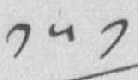༡༥༡
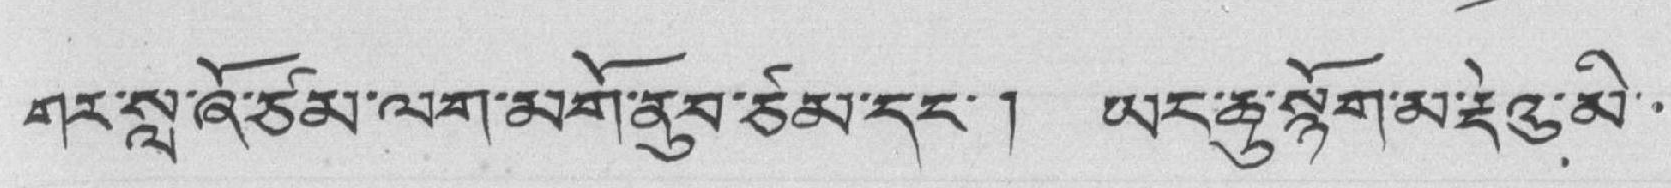གར་སླ་ཞོ་ཙམ་ལག་མགོ་ནུབ་ཙམ་དང་། ཡང་ཆུ་སྙོག་མ་རྡེའུ་མི་་
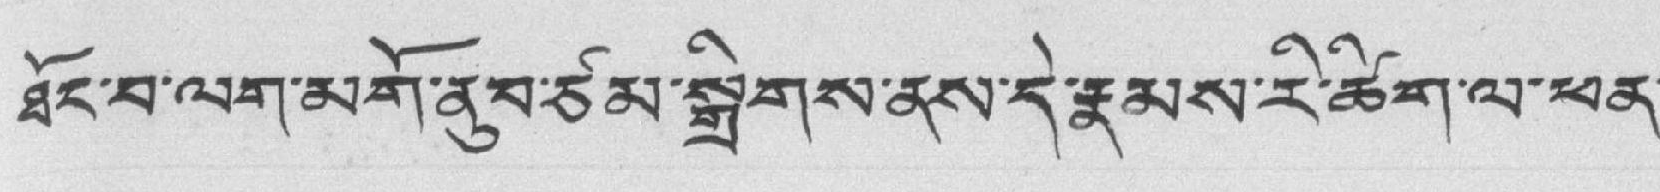ཐོང་བ་ལག་མགོ་ནུབ་ཙམ་སྒྲིགས་ནས་དེ་རྣམས་རི་ཚིག་ལ་ཕན་
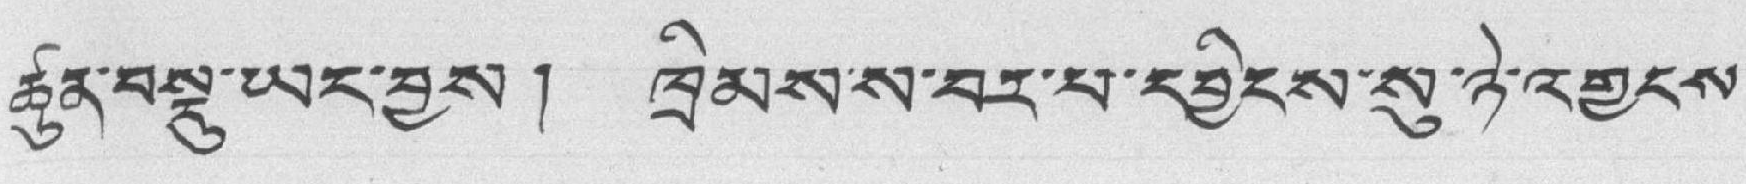ཚུན་བསྡུ་ཡང་བྱས། ཁྲིམས་ས་བར་པ་དབྱིངས་སུ་ཉེ་འགྱངས་
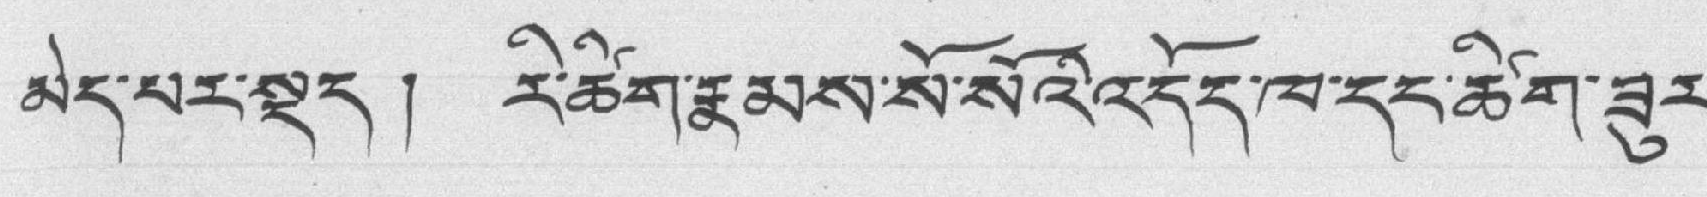མེད་པར་སྡུད། རི་ཚིག་རྣམས་སོ་སོའི་འདོད་ཁ་དང་ཚིག་ཟུར་
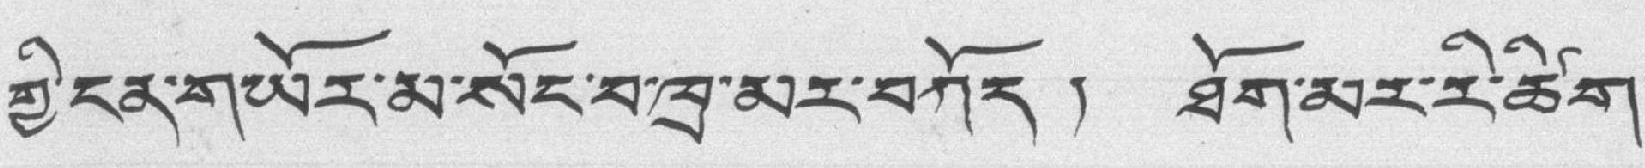གྱི་ངན་གཡོར་མ་སོང་བ་ཁྲ་མར་བཀོད ། ཐོག་མར་རི་ཚིག་
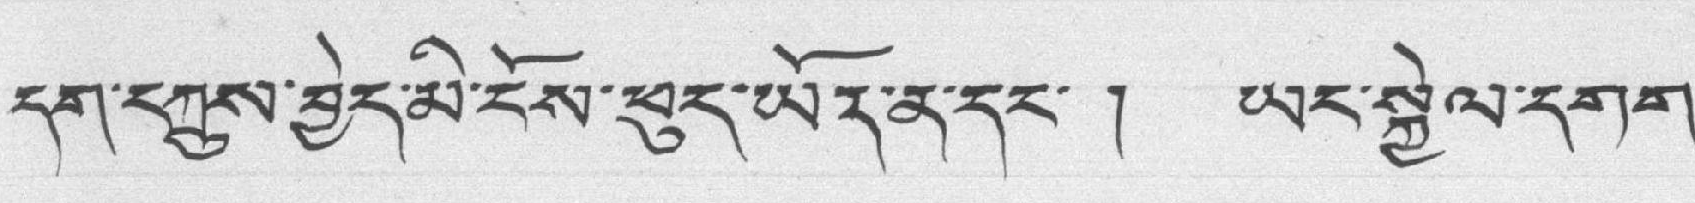དག་དཀྲུས་བྱེད་མི་ངོས་ཕུད་ཡད་ན་དང་ ། ཡང་སྐྱེལ་དགག་
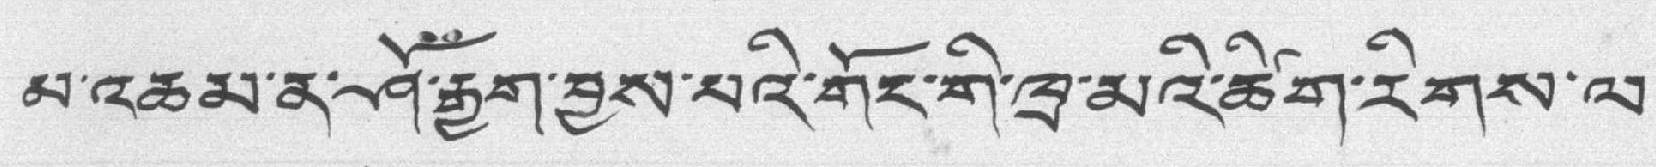མ་འཆམ་ན་ཤོ་རྒྱག་བྱས་པའི་གོང་གི་ཁྲ་མའི་ཚིག་རིགས་ལ་
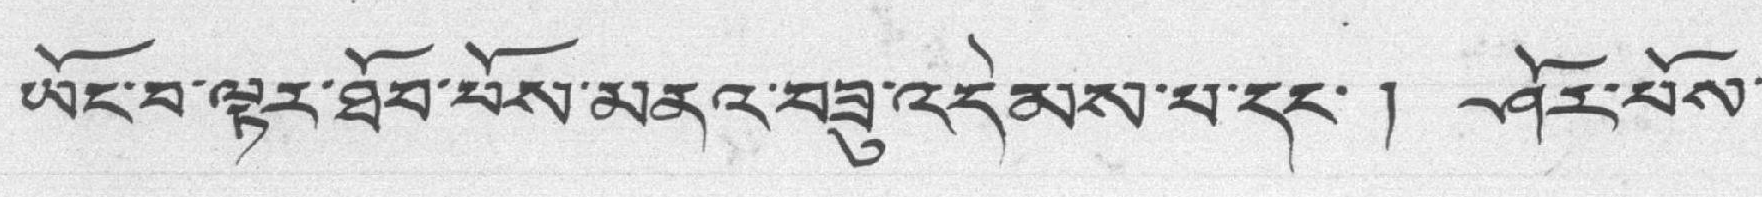ཡོང་བ་ལྟར་ཐོབ་པོས་མནའ་བཟུ་འདེམས་པ་དང་ ། ཤོར་པོས་
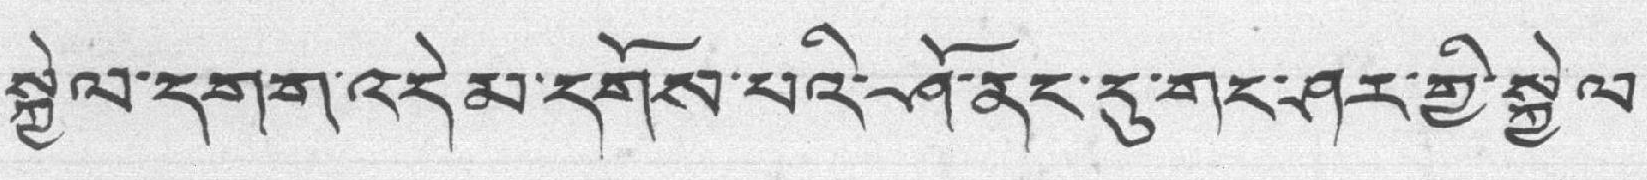སྐྱེལ་དགག་འདེམ་དགོས་པའི་ཤོ་ནང་དུ་གང་ཤར་གྱི་སྐྱེལ་
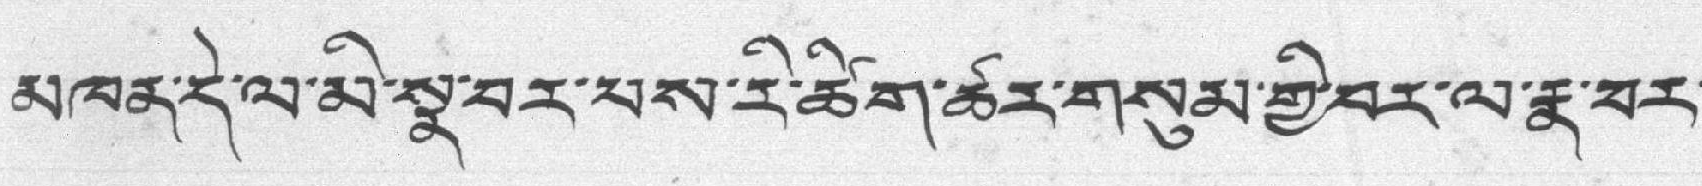མཁན་དེ་ལ་མི་སྣེ་བར་པས་རི་ཚིག་ཚར་གསུམ་གྱི་བར་ལ་རྣ་བར་
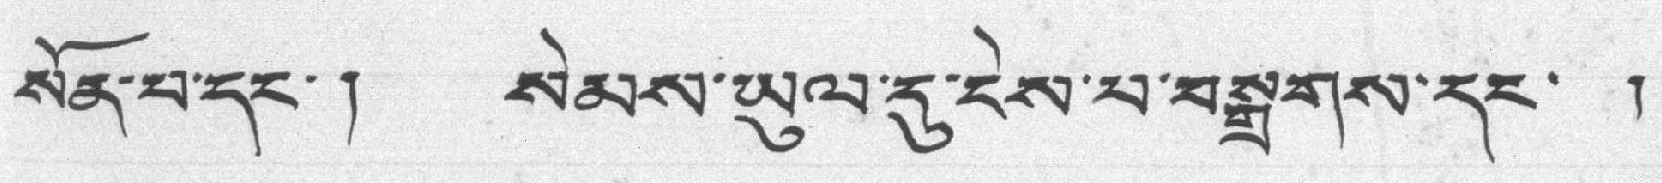སོན་པ་དང་། སེམས་ཡུལ་དུ་ངེས་པ་བསྒྲགས་དང་ །
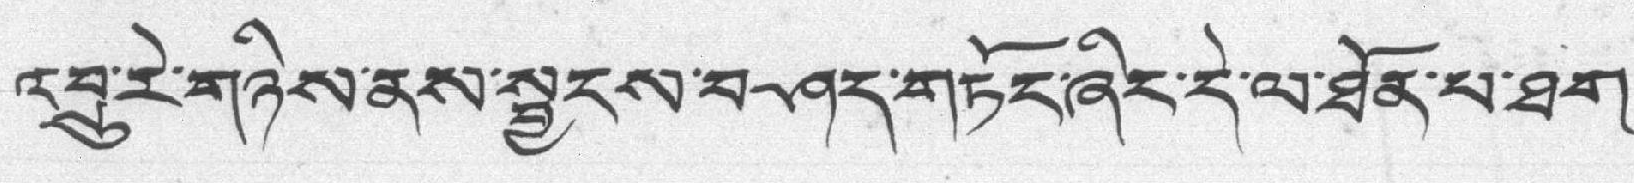འབྲུ་རེ་གཉིས་ནས་སྦྱངས་བཤད་གཏོང་ཞིང་དེ་ལ་ཐོན་པ་ཐག་
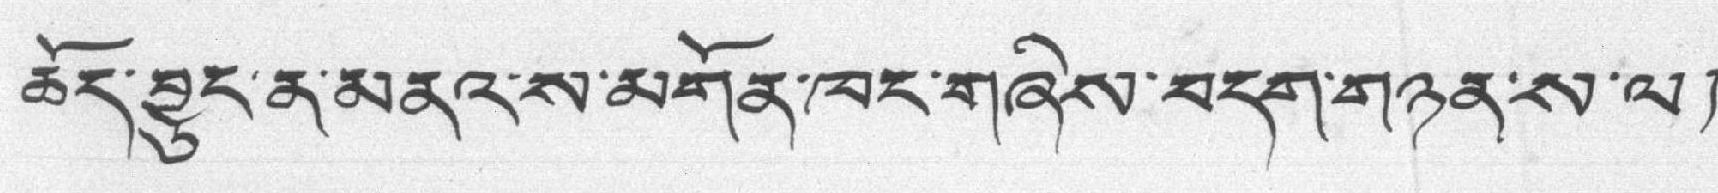ཆོད་བྱུང་ན་མནའ་ས་མགོན་ཁང་གཞིས་བདག་གཉན་ས་ལ །
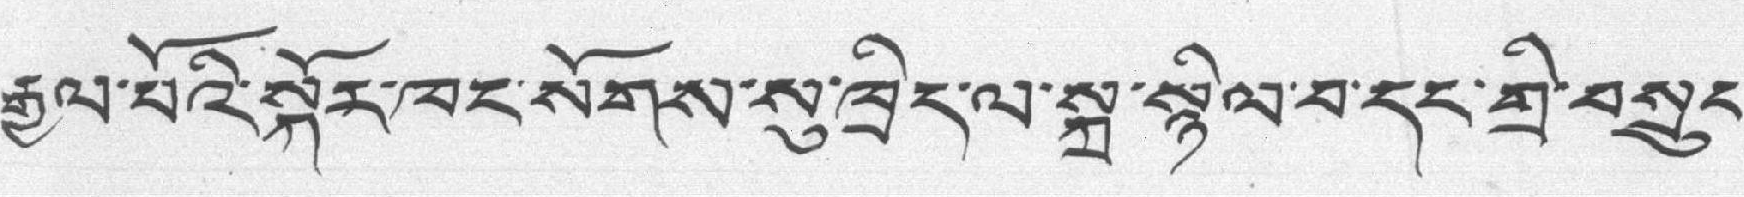རྒྱལ་པོའི་སྐོར་ཁང་སོགས་སུ་ཁྲིད་ལ་སྐྲ་སྙིལ་བ་དང་གྲི་བསྲུང་
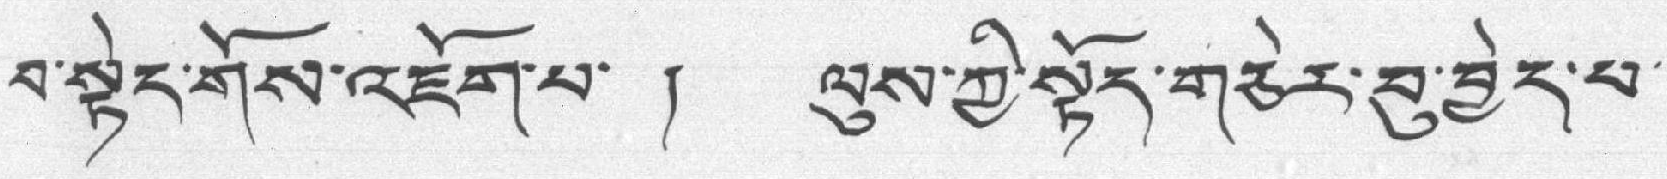བ་སྟེང་གོས་འཇོག་པ་ ། ལུས་ཀྱི་སྟོད་གཅེར་བུ་བྱེད་པ་
